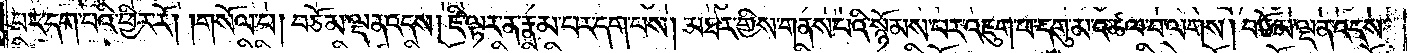པར་དག་པའི་ཕྱིར་རོ། །གསོལ་པ། བཅོམ་ལྡན་འདས། ཇི་ལྟར་ན་རྣམ་པར་དག་པས། མཐར་གྱིས་གནས་པའི་སྙོམས་པར་འཇུག་པ་དགུ་མ་འཚལ་བ་ལགས། བཅོམ་ལྡན་འདས་
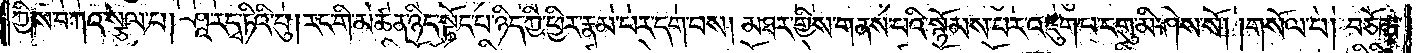ཀྱིས་བཀའ་སྩལ་པ། ཤཱ་ར་དྭ་ཏིའི་བུ། རང་གི་མཚན་ཉིད་སྟོང་པ་ཉིད་ཀྱི་ཕྱིར་རྣམ་པར་དག་པས། མཐར་གྱིས་གནས་པའི་སྙོམས་པར་འཇུག་པ་དགུ་མི་ཤེས་སོ། །གསོལ་པ། བཅོམ་
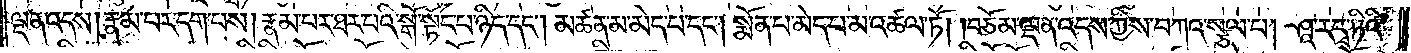ལྡན་འདས། རྣམ་པར་དག་པས། རྣམ་པར་ཐར་པའི་སྒོ་སྟོང་པ་ཉིད་དང༌། མཚན་མ་མེད་པ་དང༌། སྨོན་པ་མེད་པ་མ་འཚལ་ཏོ། །བཅོམ་ལྡན་འདས་ཀྱིས་བཀའ་སྩལ་པ། ཤཱ་ར་དྭ་ཏིའི་
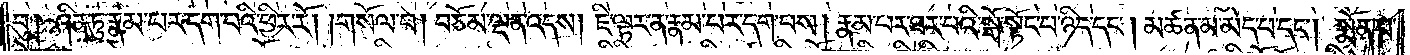བུ། ཤིན་ཏུ་རྣམ་པར་དག་པའི་ཕྱིར་རོ། །གསོལ་པ། བཅོམ་ལྡན་འདས། ཇི་ལྟར་ན་རྣམ་པར་དག་པས། རྣམ་པར་ཐར་པའི་སྒོ་སྟོང་པ་ཉིད་དང༌། མཚན་མ་མེད་པ་དང༌། སྨོན་པ་
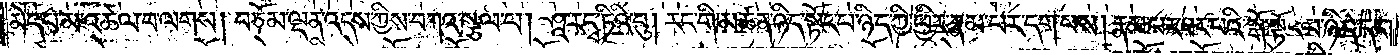མེད་པ་མ་འཚལ་བ་ལགས། བཅོམ་ལྡན་འདས་ཀྱིས་བཀའ་སྩལ་པ། ཤཱ་ར་དྭ་ཏིའི་བུ། རང་གི་མཚན་ཉིད་སྟོང་པ་ཉིད་ཀྱི་ཕྱིར་རྣམ་པར་དག་པས། རྣམ་པར་ཐར་པའི་སྒོ་སྟོང་པ་ཉིད་དང༌།
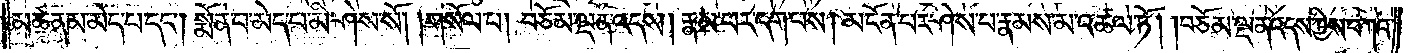མཚན་མ་མེད་པ་དང༌། སྨོན་པ་མེད་པ་མི་ཤེས་སོ། །གསོལ་པ། བཅོམ་ལྡན་འདས། རྣམ་པར་དག་པས། མངོན་པར་ཤེས་པ་རྣམས་མ་འཚལ་ཏོ། །བཅོམ་ལྡན་འདས་ཀྱིས་བཀའ་
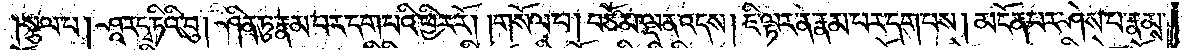སྩལ་པ། ཤཱ་ར་དྭ་ཏིའི་བུ། ཤིན་ཏུ་རྣམ་པར་དག་པའི་ཕྱིར་རོ། །གསོལ་པ། བཅོམ་ལྡན་འདས། ཇི་ལྟར་ན་རྣམ་པར་དག་པས། མངོན་པར་ཤེས་པ་རྣམས་
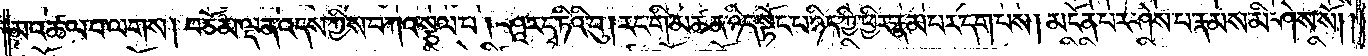མ་འཚལ་བ་ལགས། བཅོམ་ལྡན་འདས་ཀྱིས་བཀའ་སྩལ་པ། ཤཱ་ར་དྭ་ཏིའི་བུ། རང་གི་མཚན་ཉིད་སྟོང་པ་ཉིད་ཀྱི་ཕྱིར་རྣམ་པར་དག་པས། མངོན་པར་ཤེས་པ་རྣམས་མི་ཤེས་སོ། །
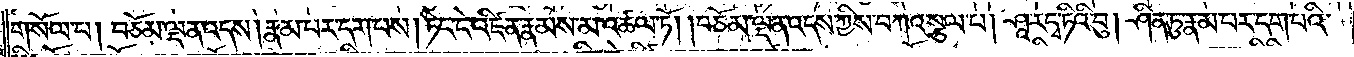གསོལ་པ། བཅོམ་ལྡན་འདས། རྣམ་པར་དག་པས། ཏིང་ངེ་འཛིན་རྣམས་མ་འཚལ་ཏེ། །བཅོམ་ལྡན་འདས་ཀྱིས་བཀའ་སྩལ་པ། ཤཱ་ར་དྭ་ཏིའི་བུ། ཤིན་ཏུ་རྣམ་པར་དག་པའི་
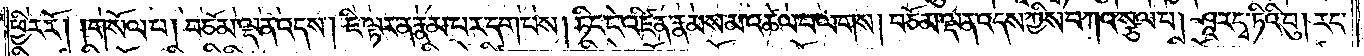ཕྱིར་རོ། །གསོལ་པ། བཅོམ་ལྡན་འདས། ཇི་ལྟར་ན་རྣམ་པར་དག་པས། ཏིང་ངེ་འཛིན་རྣམས་མ་འཚལ་བ་ལགས། བཅོམ་ལྡན་འདས་ཀྱིས་བཀའ་སྩལ་པ། ཤཱ་ར་དྭ་ཏིའི་བུ། རང་
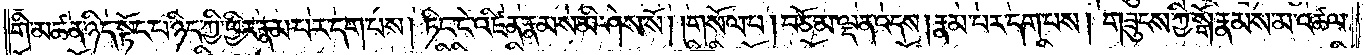གི་མཚན་ཉིད་སྟོང་པ་ཉིད་ཀྱི་ཕྱིར་རྣམ་པར་དག་པས། ཏིང་ངེ་འཛིན་རྣམས་མི་ཤེས་སོ། །གསོལ་པ། བཅོམ་ལྡན་འདས། རྣམ་པར་དག་པས། གཟུངས་ཀྱི་སྒོ་རྣམས་མ་འཚལ་
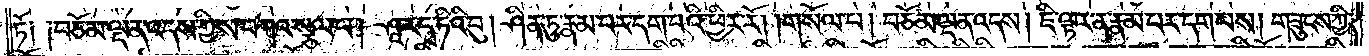ཏོ༑ ༑བཅོམ་ལྡན་འདས་ཀྱིས་བཀའ་སྩལ་པ། ཤཱ་ར་དྭ་ཏིའི་བུ། ཤིན་ཏུ་རྣམ་པར་དག་པའི་ཕྱིར་རོ། །གསོལ་པ། བཅོམ་ལྡན་འདས། ཇི་ལྟར་ན་རྣམ་པར་དག་པས། གཟུངས་ཀྱི་
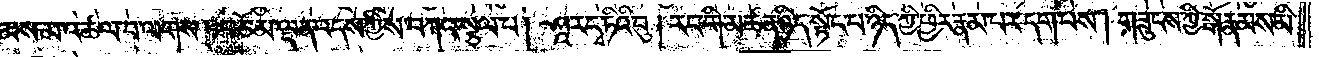སྒོ་རྣམས་མ་འཚལ་བ་ལགས། བཅོམ་ལྡན་འདས་ཀྱིས་བཀའ་སྩལ་པ། ཤཱ་ར་དྭ་ཏིའི་བུ། རང་གི་མཚན་ཉིད་སྟོང་པ་ཉིད་ཀྱི་ཕྱིར་རྣམ་པར་དག་པས། གཟུངས་ཀྱི་སྒོ་རྣམས་མི་
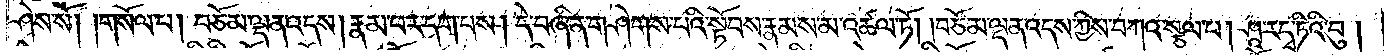ཤེས་སོ། །གསོལ་པ། བཅོམ་ལྡན་འདས། རྣམ་པར་དག་པས། དེ་བཞིན་གཤེགས་པའི་སྟོབས་རྣམས་མ་འཚལ་ཏོ། །བཅོམ་ལྡན་འདས་ཀྱིས་བཀའ་སྩལ་པ། ཤཱ་ར་དྭ་ཏིའི་བུ།
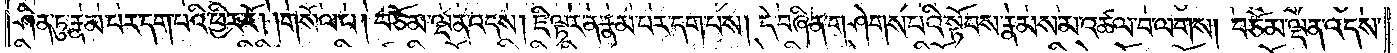ཤིན་ཏུ་རྣམ་པར་དག་པའི་ཕྱིར་རོ། །གསོལ་པ། བཅོམ་ལྡན་འདས། ཇི་ལྟར་ན་རྣམ་པར་དག་པས། དེ་བཞིན་གཤེགས་པའི་སྟོབས་རྣམས་མ་འཚལ་བ་ལགས། བཅོམ་ལྡན་འདས་
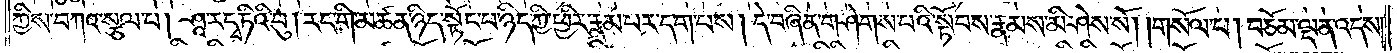ཀྱིས་བཀའ་སྩལ་པ། ཤཱ་ར་དྭ་ཏིའི་བུ། རང་གི་མཚན་ཉིད་སྟོང་པ་ཉིད་ཀྱི་ཕྱིར་རྣམ་པར་དག་པས། དེ་བཞིན་གཤེགས་པའི་སྟོབས་རྣམས་མི་ཤེས་སོ། །གསོལ་པ། བཅོམ་ལྡན་འདས།
